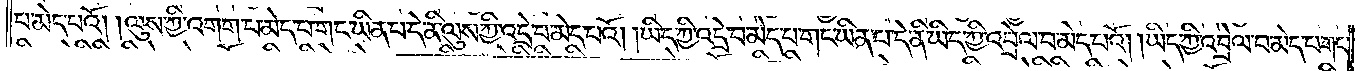པ་མེད་པའོ། །ལུས་ཀྱི་འགག་པ་མེད་པ་གང་ཡིན་པ་དེ་ནི་ལུས་ཀྱི་འདྲེ་བ་མེད་པའོ། །ཡིད་ཀྱི་འདྲེ་བ་མེད་པ་གང་ཡིན་པ་དེ་ནི་ཡིད་ཀྱི་འབྲེལ་བ་མེད་པའོ། །ཡིད་ཀྱི་འབྲེལ་བ་མེད་པ་གང་
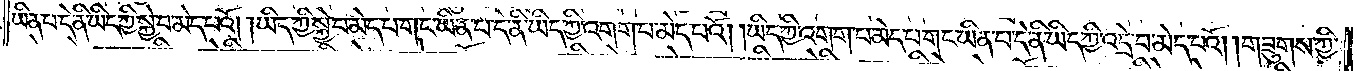ཡིན་པ་དེ་ནི་ཡིད་ཀྱི་སྐྱེ་བ་མེད་པའོ། །ཡིད་ཀྱི་སྐྱེ་བ་མེད་པ་གང་ཡིན་པ་དེ་ནི་ཡིད་ཀྱི་འགག་པ་མེད་པའོ། །ཡིད་ཀྱི་འགག་པ་མེད་པ་གང་ཡིན་པ་དེ་ནི་ཡིད་ཀྱི་འདྲེ་བ་མེད་པའོ། །གཟུགས་ཀྱི་
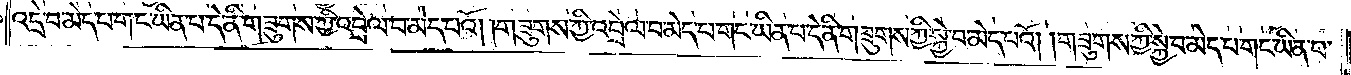འདྲེ་བ་མེད་པ་གང་ཡིན་པ་དེ་ནི་གཟུགས་ཀྱི་འབྲེལ་བ་མེད་པའོ། །གཟུགས་ཀྱི་འབྲེལ་བ་མེད་པ་གང་ཡིན་པ་དེ་ན་གཟུགས་ཀྱི་སྐྱེ་བ་མེད་པའོ། །གཟུགས་ཀྱི་སྐྱེ་བ་མེད་པ་གང་ཡིན་པ་
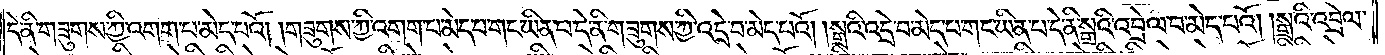དེ་ནི་གཟུགས་ཀྱི་འགག་པ་མེད་པའོ། །གཟུགས་ཀྱི་འགག་པ་མེད་པ་གང་ཡིན་པ་དེ་ནི་གཟུགས་ཀྱི་འདྲེ་བ་མེད་པའོ། །སྒྲའི་འདྲེ་བ་མེད་པ་གང་ཡིན་པ་དེ་ནི་སྒྲའི་འབྲེལ་བ་མེད་པའོ། །སྒྲའི་འབྲེལ་
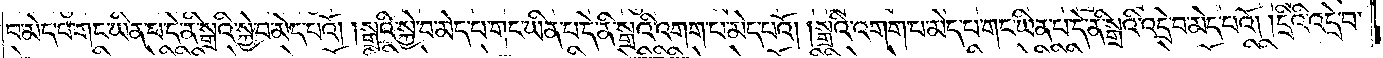བ་མེད་པ་གང་ཡིན་པ་དེ་ནི་སྒྲའི་སྐྱེ་བ་མེད་པའོ། །སྒྲའི་སྐྱེ་བ་མེད་པ་གང་ཡིན་པ་དེ་ནི་སྒྲའི་འགག་པ་མེད་པའོ། །སྒྲའི་འགག་པ་མེད་པ་གང་ཡིན་པ་དེ་ནི་སྒྲའི་འདྲེ་བ་མེད་པའོ། །དྲིའི་འདྲེ་བ་
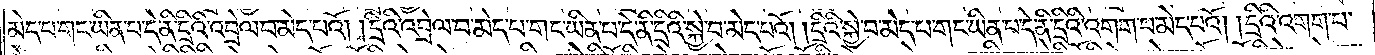མེད་པ་གང་ཡིན་པ་དེ་ནི་དྲིའི་འབྲེལ་བ་མེད་པའོ། །དྲིའི་འབྲེལ་བ་མེད་པ་གང་ཡིན་པ་དེ་ནི་དྲིའི་སྐྱེ་བ་མེད་པའོ། །དྲིའི་སྐྱེ་བ་མེད་པ་གང་ཡིན་པ་དེ་ནི་དྲིའི་འགག་པ་མེད་པའོ། །དྲིའི་འགག་པ་
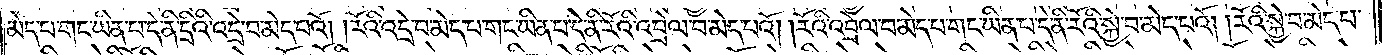མེད་པ་གང་ཡིན་པ་དེ་ནི་དྲིའི་འདྲེ་བ་མེད་པའོ། །རོའི་འདྲེ་བ་མེད་པ་གང་ཡིན་པ་དེ་ནི་རོའི་འབྲེལ་བ་མེད་པའོ། །རོའི་འབྲེལ་བ་མེད་པ་གང་ཡིན་པ་དེ་ནི་རོའི་སྐྱེ་བ་མེད་པའོ། །རོའི་སྐྱེ་བ་མེད་པ་
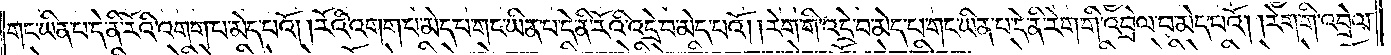གང་ཡིན་པ་དེ་ནི་རོའི་འགག་པ་མེད་པ་པའོ། །རོའི་འགག་པ་མེད་པ་གང་ཡིན་པ་དེ་ནི་རོའི་འདྲེ་བ་མེད་པའོ། །རེག་གི་འདྲེ་བ་མེད་པ་གང་ཡིན་པ་དེ་ནི་རེག་གི་འབྲེལ་བ་མེད་པའོ། །རེག་གི་འབྲེལ་
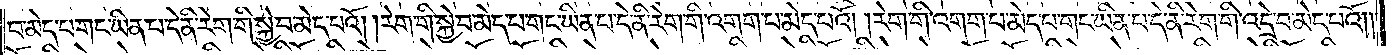བ་མེད་པ་གང་ཡིན་པ་དེ་ནི་རེག་གི་སྐྱེ་བ་མེད་པའོ། །རེག་གི་སྐྱེ་བ་མེད་པ་གང་ཡིན་པ་དེ་ནི་རེག་གི་འགག་པ་མེད་པའོ། །རེག་གི་འགག་པ་མེད་པ་གང་ཡིན་པ་དེ་ནི་རེག་གི་འདྲེ་བ་མེད་པའོ། །
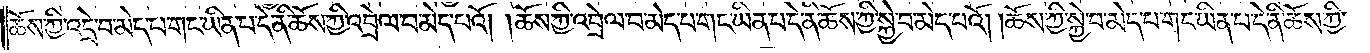ཆོས་ཀྱི་འདྲེ་བ་མེད་པ་གང་ཡིན་པ་དེ་ནི་ཆོས་ཀྱི་འབྲེལ་བ་མེད་པའོ། །ཆོས་ཀྱི་འབྲེལ་བ་མེད་པ་གང་ཡིན་པ་དེ་ནི་ཆོས་ཀྱི་སྐྱེ་བ་མེད་པའོ། །ཆོས་ཀྱི་སྐྱེ་བ་མེད་པ་གང་ཡིན་པ་དེ་ནི་ཆོས་ཀྱི་
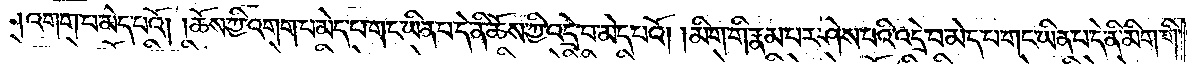འགག་པ་མེད་པའོ། །ཆོས་ཀྱི་འགག་པ་མེད་པ་གང་ཡིན་པ་དེ་ནི་ཆོས་ཀྱི་འདྲེ་བ་མེད་པའོ། །མིག་གི་རྣམ་པར་ཤེས་པའི་འདྲེ་བ་མེད་པ་གང་ཡིན་པ་དེ་ནི་མིག་གི་
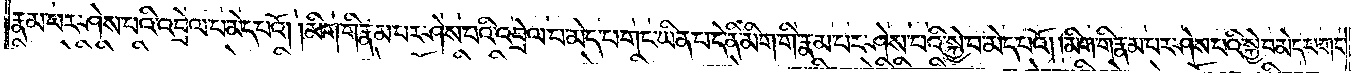རྣམ་པར་ཤེས་པའི་འབྲེལ་བ་མེད་པའོ། །མིག་གི་རྣམ་པར་ཤེས་པའི་འབྲེལ་པ་མེད་པ་གང་ཡིན་པ་དེ་ནི་མིག་གི་རྣམ་པར་ཤེས་པའི་སྐྱེ་བ་མེད་པའོ། །མིག་གི་རྣམ་པར་ཤེས་པའི་སྐྱེ་བ་མེད་པ་གང་
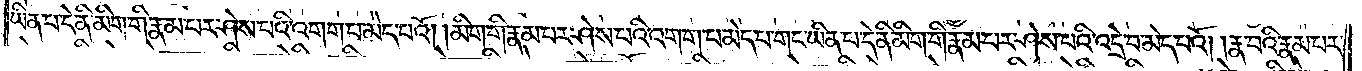ཡིན་པ་དེ་ནི་མིག་གི་རྣམ་པར་ཤེས་པའི་འགག་པ་མེད་པའོ། །མིག་གི་རྣམ་པར་ཤེས་པའི་འགག་པ་མེད་པ་གང་ཡིན་པ་དེ་ནི་མིག་གི་རྣམ་པར་ཤེས་པའི་འདྲེ་བ་མེད་པའོ། །རྣ་བའི་རྣམ་པར་
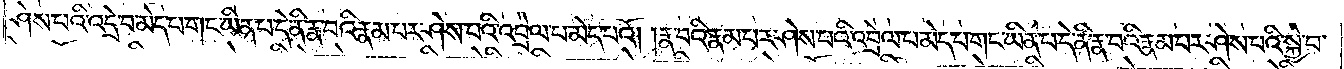ཤེས་པའི་འདྲེ་བ་མེད་པ་གང་ཡིན་པ་དེ་ནི་རྣ་བའི་རྣམ་པར་ཤེས་པའི་འབྲེལ་པ་མེད་པའོ། །རྣ་བའི་རྣམ་པར་ཤེས་པའི་འབྲེལ་པ་མེད་པ་གང་ཡིན་པ་དེ་ནི་རྣ་བའི་རྣམ་པར་ཤེས་པའི་སྐྱེ་བ་
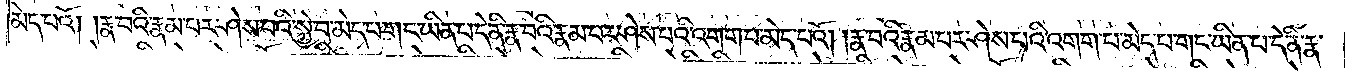མེད་པའོ། །རྣ་བའི་རྣམ་པར་ཤེས་པའི་སྐྱེ་བ་མེད་པ་གང་ཡིན་པ་དེ་ནི་རྣ་བའི་རྣམ་པར་ཤེས་པའི་འགག་པ་མེད་པའོ། །རྣ་བའི་རྣམ་པར་ཤེས་པའི་འགག་པ་མེད་པ་གང་ཡིན་པ་དེ་ནི་རྣ་
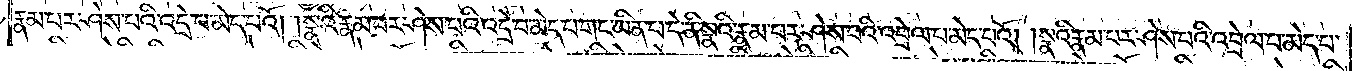རྣམ་པར་ཤེས་པའི་འདྲེ་བ་མེད་པའོ། །སྣའི་རྣམ་པར་ཤེས་པའི་འདྲེ་བ་མེད་པ་གང་ཡིན་པ་དེ་ནི་སྣའི་རྣམ་པར་ཤེས་པའི་འབྲེལ་པ་མེད་པའོ། །སྣའི་རྣམ་པར་ཤེས་པའི་འབྲེལ་པ་མེད་པ་
